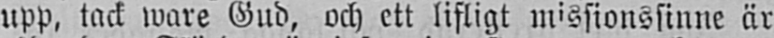upp, tack ware Gud, och ett lifligt missionssinne är
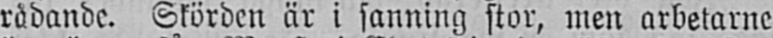rådande. Skörden är i sanning stor, men arbetarne
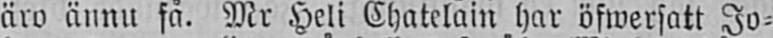äro ännu få. Mr Heli Chatelain har öfwersatt Jo-
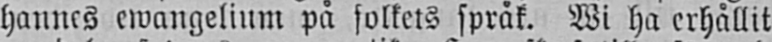hannes ewangelium på folkets språk. Wi ha erhållit
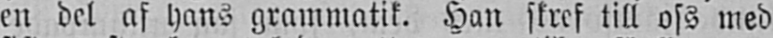en del af hans grammatik. Han skref till oss med
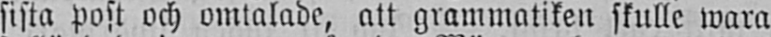sista post och omtalade, att grammatiken skulle wara
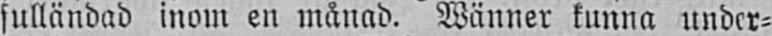fulländad inom en månad. Wänner kunna under-
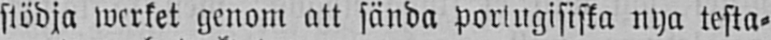stödja werket genom att sända portugisiska nya testa-
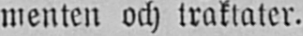menten och traktater.
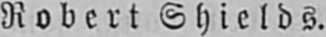Robert Shields.
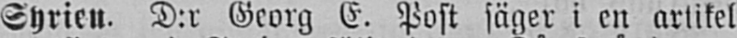Syrien. D:r Georg E. Post säger i en artikel
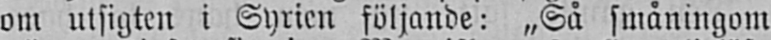om utsigten i Syrien följande: „Så småningom
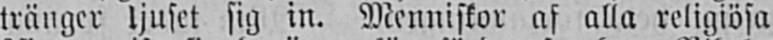tränger ljuset sig in. Menniskor af alla religiösa
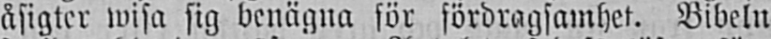åsigter wisa sig benägna för fördragsamhet. Bibeln
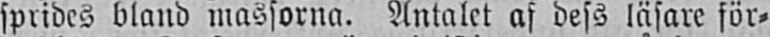sprides bland massorna. Antalet af dess läsare för-
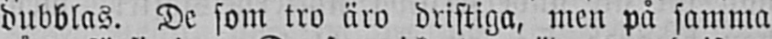dubblas. De som tro äro dristiga, men på samma
